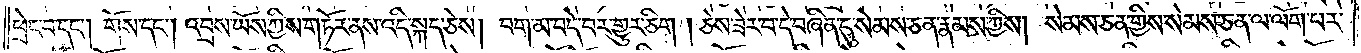ཕྲེང་བ་དང༌། གོས་དང༌། འབྲས་ཡོས་ཀྱིས་གཏོར་ནས་འདི་སྐད་ཅེས། བག་མ་བདེ་བར་གྱུར་ཅིག །ཅེས་ཟེར་བ་དེ་བཞིན་དུ་སེམས་ཅན་རྣམས་ཀྱིས། སེམས་ཅན་གྱིས་སེམས་ཅན་ལ་ལོག་པར་
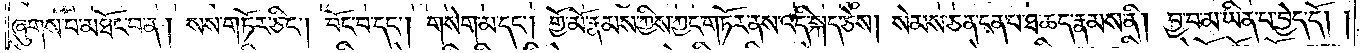ཞུགས་པ་མཐོང་བ་ན། སས་གཏོར་ཅིང༌། བོང་བ་དང༌། གསེག་མ་དང༌། གྱོ་མོ་རྣམས་ཀྱིས་ཀྱང་གཏོར་ནས་འདི་སྐད་ཅེས། སེམས་ཅན་ངན་པ་ཐ་ཆད་རྣམས་ནི། བྱ་བ་མ་ཡིན་པ་བྱེད་དོ། །
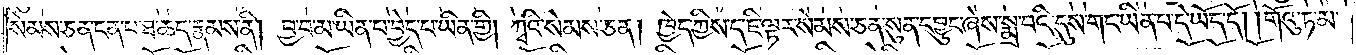སེམས་ཅན་ངན་པ་ཐ་ཆད་རྣམས་ནི། བྱ་བ་མ་ཡིན་པ་བྱེད་པ་ཡིན་གྱི། ཀྭའི་སེམས་ཅན། ཁྱེད་ཀྱིས་ད་ཇི་ལྟར་སེམས་ཅན་སུན་དབྱུང་ཞེས་སྨྲ་བའི་དུས་གང་ཡིན་པ་དེ་ཡོད་དོ། །གོའུ་ཏ་མ་
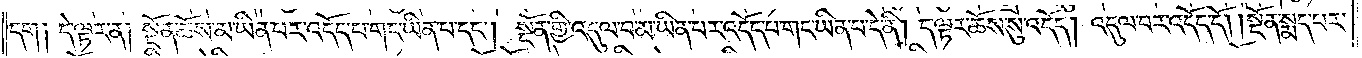དག །དེ་ལྟར་ན། སྔོན་ཆོས་མ་ཡིན་པར་འདོད་པ་གང་ཡིན་པ་དང༌། སྔོན་གྱི་འདུལ་བ་མ་ཡིན་པར་འདོད་པ་གང་ཡིན་པ་དེ་ནི། ད་ལྟར་ཆོས་སུ་འདོད། འདུལ་བར་འདོད་དོ། །སྔོན་སྨད་པར་
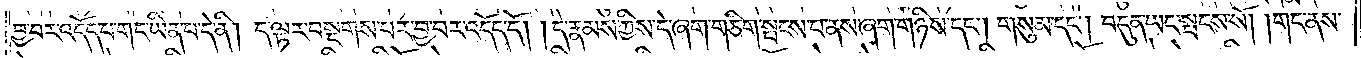བྱ་བར་འདོད་པ་གང་ཡིན་པ་དེ་ནི། ད་ལྟར་བསྔགས་པར་བྱ་བར་འདོད་དོ། །དེ་རྣམས་ཀྱིས་དེ་ཞག་གཅིག་སྤངས་པ་ནས་ཞག་གཉིས་དང༌། གསུམ་དང༌། བདུན་ཡང་སྤངས་སོ། །གང་ནས་
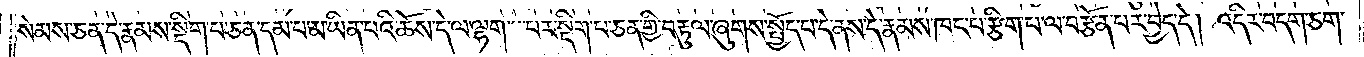སེམས་ཅན་དེ་རྣམས་སྡིག་པ་ཅན་དམ་པ་མ་ཡིན་པའི་ཆོས་དེ་ལ་ལྷག་པར་སྡིག་པ་ཅན་གྱི་བརྟུལ་ཞུགས་སྤྱོད་པ་དེ་ནས་དེ་རྣམས་ཁང་པ་རྩིག་པ་ལ་བརྩོན་པར་བྱེད་དེ། འདིར་བདག་ཅག་
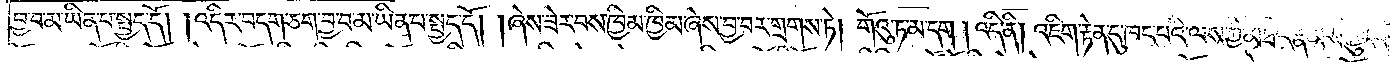བྱ་བ་མ་ཡིན་པ་སྤྱད་དོ། །འདིར་བདག་ཅག་བྱ་བ་མ་ཡིན་པ་སྤྱད་དོ། །ཞེས་ཟེར་བས་ཁྱིམ་ཁྱིམ་ཞེས་བྱ་བར་གྲགས་ཏེ། གོའུ་ཏ་མ་དག །འདི་ནི། འཇིག་རྟེན་དུ་ཁང་པའི་ལས་ཀྱི་མཐའ་རྣམས་བྱུང་བའི་
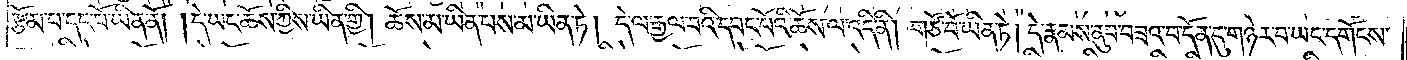རྩོམ་པ་དང་པོ་ཡིན་ནོ། །དེ་ཡང་ཆོས་ཀྱིས་ཡིན་གྱི། ཆོས་མ་ཡིན་པས་མ་ཡིན་ཏེ། དེ་ལ་རྒྱལ་བའི་དབང་པོའི་ཆོས་ལ་འདི་ནི། གཙོ་བོ་ཡིན་ཏེ། དེ་རྣམས་ནུབ་བཟའ་བ་དོན་དུ་གཉེར་བ་ཡང་དགོངས་
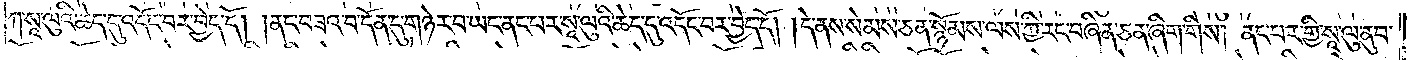ཀ་སཱ་ལུའི་ཆེད་དུ་འདོང་བར་བྱེད་དོ། །ནང་བཟའ་བ་དོན་དུ་གཉེར་བ་ཡང་ནང་པར་སཱ་ལུའི་ཆེད་དུ་འདོང་བར་བྱེད་དོ། །དེ་ནས་སེམས་ཅན་སྙོམས་ལས་ཀྱི་རང་བཞིན་ཅན་ཞིག་གིས། ནང་པར་གྱི་སཱ་ལུ་ནུབ་
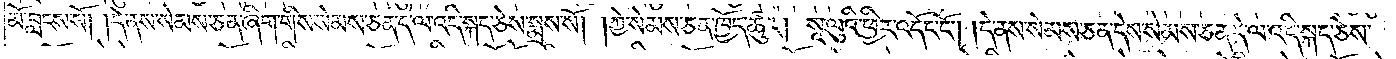མོ་བླངས་སོ། །དེ་ནས་སེམས་ཅན་ཞིག་གིས་སེམས་ཅན་དེ་ལ་འདི་སྐད་ཅེས་སྨྲས་སོ། །ཀྱེ་སེམས་ཅན་ཁྱོད་ཚུར། སཱ་ལུའི་ཕྱིར་འདོང་ངོ༌། །དེ་ནས་སེམས་ཅན་དེས་སེམས་ཅན་དེ་ལ་འདི་སྐད་ཅེས་
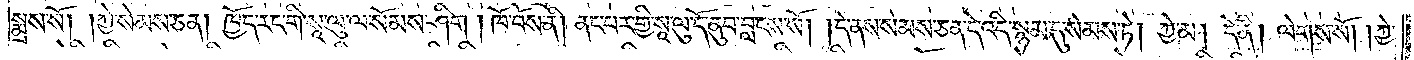སྨྲས་སོ། །ཀྱེ་སེམས་ཅན། ཁྱོད་རང་གི་སཱ་ལུ་ལ་སོམས་ཤིག །ཁོ་བོས་ནི། ནང་པར་གྱི་སཱ་ལུ་དོ་ནུབ་བླངས་སོ། །དེ་ནས་སེམས་ཅན་དེ་འདི་སྙམ་དུ་སེམས་ཏེ། ཀྱེ་མ། དེ་ནི། ལེགས་སོ། །ཀྱེ་
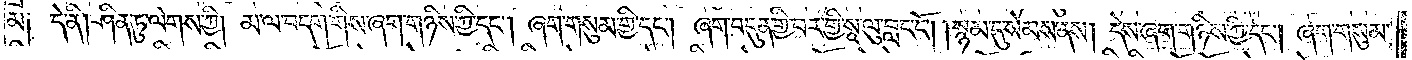མ༑ དེ་ནི། ཤིན་ཏུ་ལེགས་ཀྱི། མ་ལ་བདག་གིས་ཞག་གཉིས་ཀྱི་དང༌། ཞག་གསུམ་གྱི་དང༌། ཞག་བདུན་གྱི་བར་གྱི་སཱ་ལུ་བླང་ངོ༌། །སྙམ་དུ་སེམས་ནས། དེས་ཞག་གཉིས་ཀྱི་དང༌། ཞག་གསུམ་
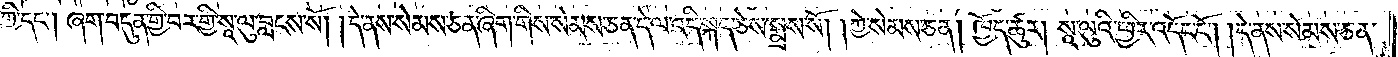གྱི་དང༌། ཞག་བདུན་གྱི་བར་གྱི་སཱ་ལུ་བླངས་སོ། །དེ་ནས་སེམས་ཅན་ཞིག་གིས་སེམས་ཅན་དེ་ལ་འདི་སྐད་ཅེས་སྨྲས་སོ། །ཀྱེ་སེམས་ཅན། ཁྱོད་ཚུར། སཱ་ལུའི་ཕྱིར་འདོང་ངོ༌། །དེ་ནས་སེམས་ཅན་
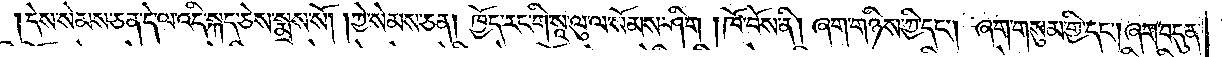།དེས་སེམས་ཅན་དེ་ལ་འདི་སྐད་ཅེས་སྨྲས་སོ། །ཀྱེ་སེམས་ཅན། ཁྱོད་རང་གི་སཱ་ལུ་ལ་སོམས་ཤིག །ཁོ་བོས་ནི། ཞག་གཉིས་ཀྱི་དང༌། ཞག་གསུམ་གྱི་དང༌། ཞག་བདུན་
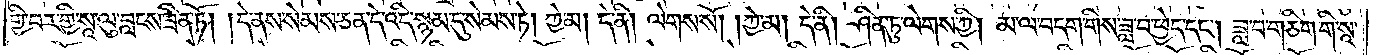གྱི་བར་གྱི་སཱ་ལུ་བླངས་ཟིན་ཏོ། །དེ་ནས་སེམས་ཅན་དེ་འདི་སྙམ་དུ་སེམས་ཏེ། ཀྱེ་མ། དེ་ནི། ལེགས་སོ། །ཀྱེ་མ། དེ་ནི། ཤིན་ཏུ་ལེགས་ཀྱི། མ་ལ་བདག་གིས་ཟླ་བ་ཕྱེད་དང༌། ཟླ་བ་གཅིག་གི་སཱ་
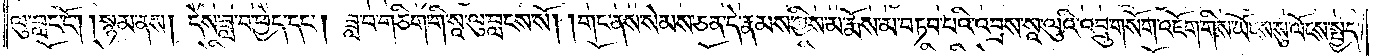ལུ་བླང་ངོ༌། །སྙམ་ནས། དེས་ཟླ་བ་ཕྱེད་དང༌། ཟླ་བ་གཅིག་གི་སཱ་ལུ་བླངས་སོ། །གང་ནས་སེམས་ཅན་དེ་རྣམས་ཀྱིས་མ་རྨོས་མ་བཏབ་པའི་འབྲས་སཱ་ལུའི་འབྲུ་གསོག་འཇོག་གིས་ཡོངས་སུ་ལོངས་སྤྱད་
